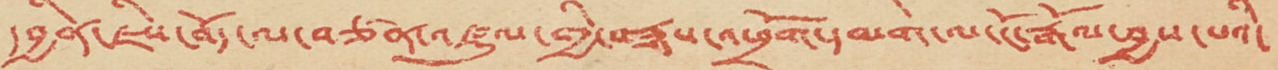དབྱིན་ཇིས་བོད་ལ་བཙན་འཛུལ་གྱི་བརྙས་འཕྲོག་དམག་ལ་ངོ་རྒོལ་བྱས་པའི་
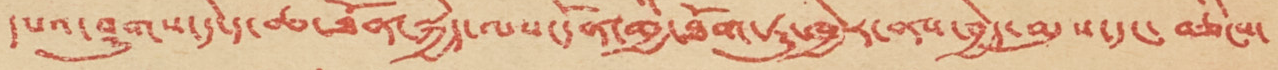དཔའ་ཤུགས་དེ་ད་ཆ་ཐོན་སྐྱེད་ལས་དོན་གྱི་ཐོག་ཏུ་ཁྱེར་ནས་བྱེད་མུས་དང་ བཅིངས་
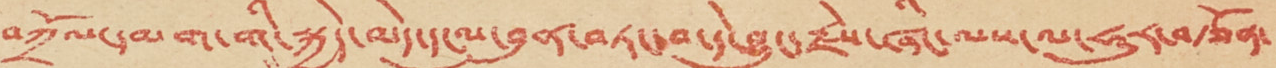བཀྲོལ་དམག་གི་སྐྱེད་མེད་དངུལ་བུན་བཏང་བ་དེ་བྱུང་རྗེས་ཞིང་ལས་ལ་ཧུར་བརྩོན་
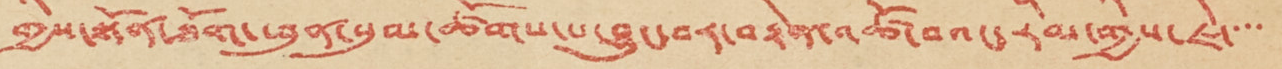གྱིས་སྟོན་ཐོག་ཕུན་སུམ་ཚོགས་པ་བྱུང་བར་བརྟེན་འཚོ་བའང་རིམ་གྱིས་ཇེ་་་་
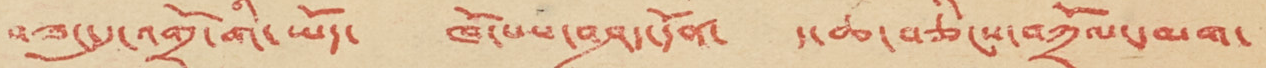བཟང་དུ་འགྲོ་གི་ཡོད་ ཁོ་པས་བཤད་དོན་ ད་ཆ་བཅིངས་བཀྲོལ་དམག་
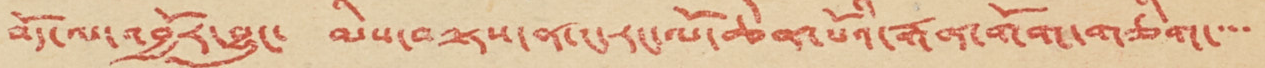བོད་ལ་འབྱོར་བྱུང་ མིས་བལྟས་ན་ང་རང་ལོ་ཆེན་པོའི་རྒན་གོག་གཅིག་་་་
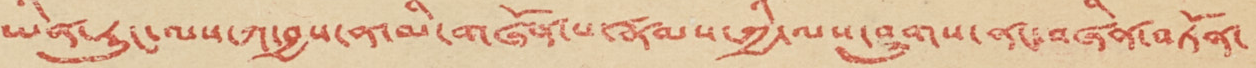ཡིན་རུང་ལས་ཀ་བྱས་ན་མི་གཞོན་པ་རྣམས་ཀྱི་ལས་ཤུགས་ནང་བཞིན་བཏོན་
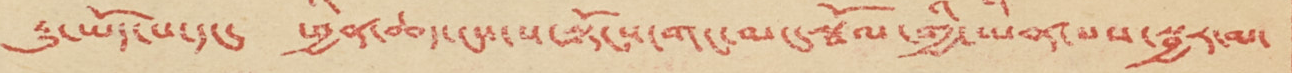རྒྱུ་ཡོད་པ་དང་ ཕྱིན་ཆད་ངས་ས་སྟོངས་གང་མང་སྦོལ་གྱི་ཡིན་པས་སྦྱར་མ་
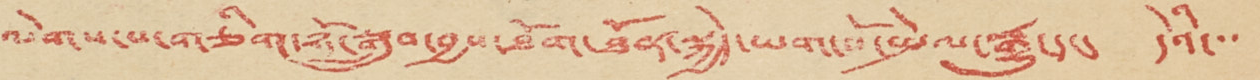ལེགས་པ་གཅིག་ཉོ་སྒྲུབ་བྱས་ཐོག་ཐོན་སྐྱེད་ཡག་པོ་སྤེལ་རྒྱུ་དང་ དེའི་་་
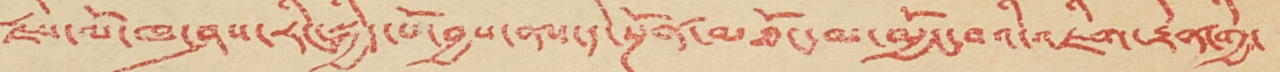རྗེས་ལོ་ཁ་ཤས་རིང་སྐྱིད་པོ་བྱས་ནས་དེ་སྔོན་མཐོང་མ་མྱོང་བའི་འཇིག་རྟེན་གྱི་
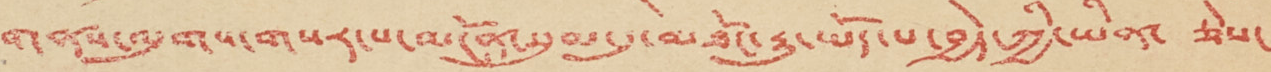གནས་ལུགས་གསར་པ་མངོན་སུམ་དུ་མཐོང་རྒྱུ་ཡོད་པ་བྱེད་ཀྱི་ཡིན་ ཅེས་
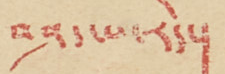བཤད་པ་རེད་།
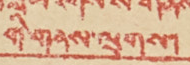གི་གནས་ལུགས།
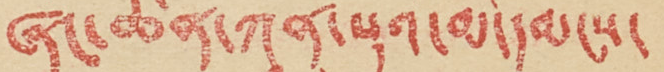ཞིང་ཆེན་ཀཱན་སུའི་མི་དམངས་
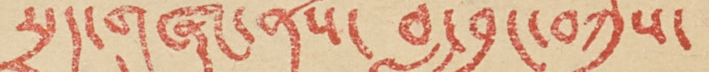སྲིད་གཞུང་ནས་ བླ་བྲང་བཀྲིས་
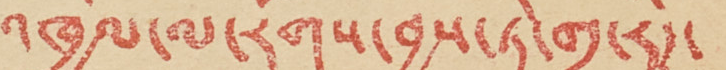འཁྱིལ་ལ་རོགས་བྱས་ཏེ་གྲྭ་རིཊ་
